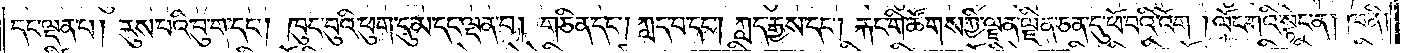དང་ལྡན་པ། རུས་པའི་བུ་ག་དང༌། ཁུང་བུའི་ཕུག་དུ་མ་དང་ལྡན་པ། གཅིན་དང༌། ཀླད་པ་དང༌། ཀླད་རྒྱས་དང༌། རྐང་གི་ཚོགས་ཀྱི་ལྗན་ལྗིན་ཅན་དུ་ཕོ་བའི་འོག །ལོང་ཀའི་སྟེང་ན། ཁ་ནི།
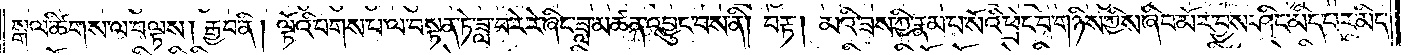སྒལ་ཚིགས་ལ་བལྟས། རྒྱབ་ནི། ལྟོའི་པགས་པ་ལ་བསྟན་ཏེ་ཟླ་བ་རེ་རེ་ཞིང་ཟླ་མཚན་འབྱུང་བས་ནི། བརྟ། མའི་ཟས་ཀྱི་རྣམ་པ་སོའི་ཕྲེང་བ་གཉིས་ཀྱིས་ཞིབ་མོར་བྱས་ཤིང་མིད་པར་མིད་
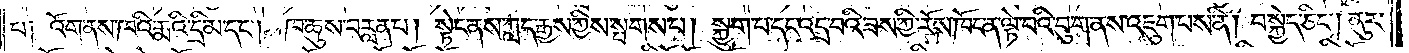པ༑ འོག་ནས་ཁའི་རྨའི་དྲི་མ་དང༌། ཁ་ཆུས་བརླན་པ། སྟེང་ནས་ཀླད་རྒྱས་ཀྱིས་སྤགས་པ། སྐྱུག་པ་དང་འདྲ་བའི་ཟས་ཀྱི་རོས་ཁོང་ན་ལྟེ་བའི་བུ་ག་ནས་འཇུག་པས་ནི། བསྐྱེད་ཅིང༌། ནུར་
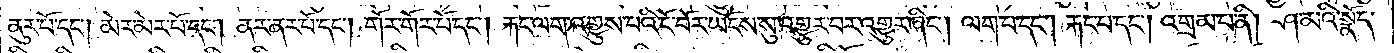ནུར་པོ་དང༌། མེར་མེར་པོ་དང༌། ནར་ནར་པོ་དང༌། གོར་གོར་པོ་དང༌། རྐང་ལག་འགྱུས་པའི་ངོ་བོར་ཡོངས་སུ་འགྱུར་བར་འགྱུར་ཞིང༌། ལག་པ་དང༌། རྐང་པ་དང༌། འགྲམ་པ་ནི། ཤ་མའི་སྣོད་
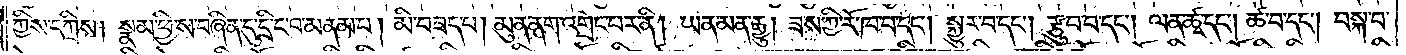ཀྱིས་དཀྲིས། སྣམ་ཕྱི་ས་བཞིན་དུ་དྲི་ང་བ་མནམ་པ། མི་བཟད་པ། མུན་ནག་འགྲེང་བར་ནི། ཡན་མན་རྒྱུ། ཟས་ཀྱི་རོ་ཁ་བ་དང༌། སྐྱུར་བ་དང༌། རྩུབ་པ་དང༌། ལན་ཚྭ་དང༌། ཚ་བ་དང༌། བསྐ་བ་
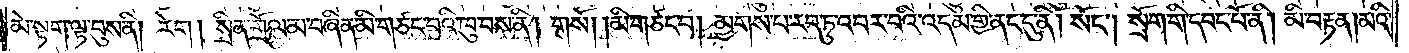མེ་སྟག་ལྟ་བུས་ནི། རེག །སྲིན་གྲོལ་མ་བཞིན་མི་གཙང་བའི་ཁུ་བས་ནི། གསོ། མི་གཙང་བ། མྱགས་པ་རབ་ཏུ་འབར་བའི་འདམ་གྱི་ནང་དུ་ནི། སོང༌། སྲོག་གི་དབང་པོ་ནི། མི་བརྟན། མའི་
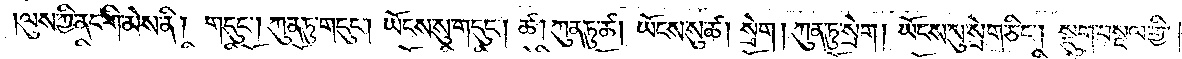ལུས་ཀྱི་ནང་གི་མེས་ནི། གདུང༌། ཀུན་ཏུ་གདུང༌། ཡོངས་སུ་གདུང༌། ཚ། ཀུན་ཏུ་ཚ། ཡོངས་སུ་ཚ། སྲེག། ཀུན་ཏུ་སྲེག། ཡོངས་སུ་སྲེག་ཅིང༌། སྡུག་བསྔལ་གྱི་
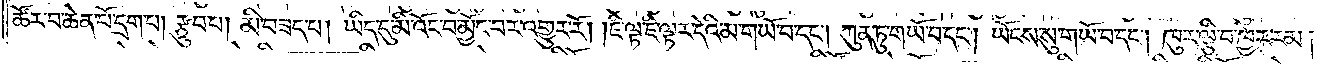ཚོར་བ་ཆེན་པོ་དྲག་པ། རྩུབ་པ། མི་བཟད་པ། ཡིད་དུ་མི་འོང་བ་མྱོང་བར་འགྱུར་རོ། །ཇི་ལྟ་ཇི་ལྟར་དེའི་མ་གཡོ་བ་དང༌། ཀུན་ཏུ་གཡོ་བ་དང༌། ཡོངས་སུ་གཡོ་བ་དང༌། ཁུར་ལྕི་བ་ཁྱེར་རམ།
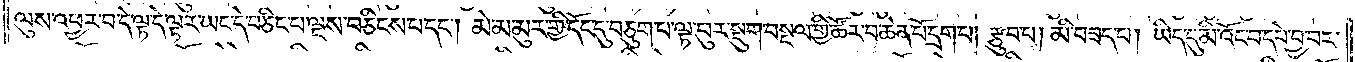ལུས་འཕྱར་བ་དེ་ལྟ་དེ་ལྟར་ཡང་དེ་བཅིང་པ་ལྔས་བཅིངས་པ་དང༌། མེ་མ་མུར་གྱི་དོང་དུ་བཅུག་པ་ལྟ་བུར་སྡུག་བསྔལ་གྱི་ཚོར་བ་ཆེན་པོ་དྲག་པ། རྩུབ་པ། མི་བཟད་པ། ཡིད་དུ་མི་འོང་བ་དཔེ་བྱ་བར་
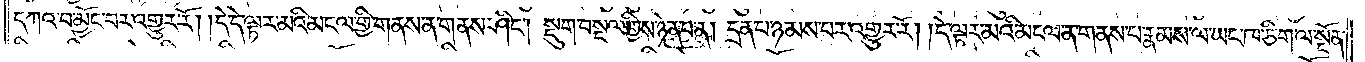དཀའ་བ་མྱོང་བར་འགྱུར་རོ། །དེ་དེ་ལྟར་མའི་མངལ་གྱི་གནས་ན་གནས་ཤིང༌། སྡུག་བསྔལ་གྱིས་ཉེན་པ་ན། དྲན་པ་ཉམས་པར་འགྱུར་རོ། །དེ་ལྟར་མའི་མངལ་ན་གནས་པ་རྣམས་ལ་ཡང་ཁ་ཅིག་ལ་སྔོན་
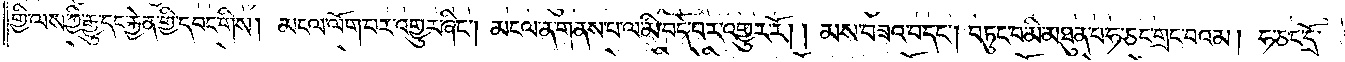གྱི་ལས་ཀྱི་རྒྱུ་དང་རྐྱེན་གྱི་དབང་གིས། མངལ་ལོག་པར་འགྱུར་ཞིང༌། མངལ་ན་གནས་པ་ལ་མི་བདེ་བར་འགྱུར་རོ། །མས་བཟའ་བ་དང༌། བཏུང་བ་མི་མཐུན་པ་ཧ་ཅང་གྲང་བའམ། ཧ་ཅང་དྲོ་
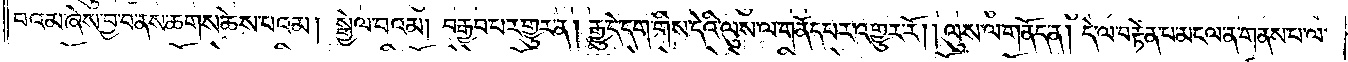བའམ་ཞེས་བྱ་བ་ནས་ཆགས་ཆེས་པའམ། སྒྱེལ་བའམ། བརྒྱབ་པར་གྱུར་ན། རྒྱུ་དེ་དག་གིས་དེའི་ལུས་ལ་གནོད་པར་འགྱུར་རོ། །ལུས་ལ་གནོད་ན། དེ་ལ་བརྟེན་པ་མངལ་ན་གནས་པ་ལ་
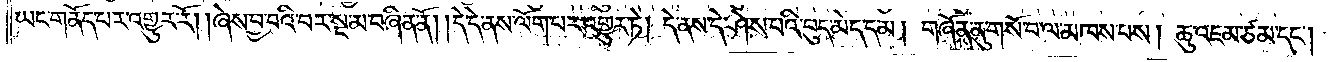ཡང་གནོད་པར་འགྱུར་རོ། །ཞེས་བྱ་བའི་བར་སྔ་མ་བཞིན་ནོ། །དེ་དེ་ནས་ལོག་པར་འགྱུར་ཏེ། དེ་ནས་དེ་ཤེས་པའི་བུད་མེད་དམ། གཞོན་ནུ་གསོ་བ་ལ་མཁས་པས། ཆུ་འཇམ་ཙམ་དང༌།
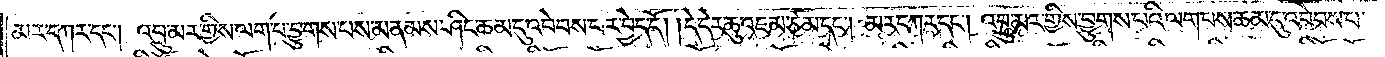མར་དཀར་དང༌། འབྲུ་མར་གྱིས་ལག་པ་བྱུགས་པས་མནམས་ཤིང་ཆམ་དུ་འབེབས་པར་བྱེད་དོ། །དེ་དེར་ཆུ་འཇམ་ཙམ་དང༌། མར་དཀར་དང༌། འབྲུ་མར་གྱིས་བྱུགས་པའི་ལག་པས་ཆམ་དུ་འབེབས་པ་
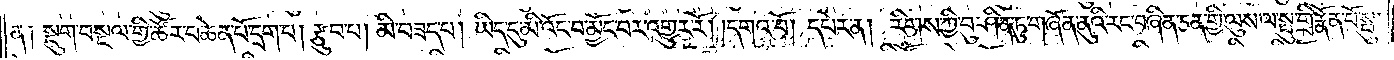ན༑ སྡུག་བསྔལ་གྱི་ཚོར་བ་ཆེན་པོ་དྲག་པ། རྩུབ་པ། མི་བཟད་པ། ཡིད་དུ་མི་འོང་བ་མྱོང་བར་འགྱུར་རོ། །དགའ་བོ། དཔེར་ན། རིགས་ཀྱི་བུ་ཤིན་ཏུ་གཞོན་ནུའི་རང་བཞིན་ཅན་གྱི་ལུས་ལ་སྤུ་གྲི་རྣོན་པོ་སྤུ་
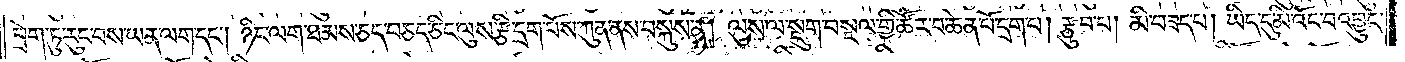བྲེག་ཏུ་རུང་བས་ཡན་ལག་དང༌། ཉིང་ལག་ཐམས་ཅད་བཅད་ཅིང་ལུས་རྩི་དྲག་པོས་ཀུན་ནས་བསྐུས་ན། ལུས་ལ་སྡུག་བསྔལ་གྱི་ཚོར་བ་ཆེན་པོ་དྲག་པ། རྩུབ་པ། མི་བཟད་པ། ཡིད་དུ་མི་འོང་བ་འབྱུང་
